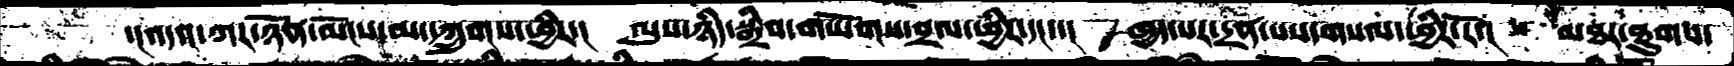་།འདའ་ཀར་ཉོན་མོངས་མ་དཀྲུགས་ཕྱིར་།  ལུས་ཉིད་སྒྲིབ་གཡོགས་བྲལ་ཕྱིར་དང་་།  ཁྱད་པར་དྲིན་པས་གསལ་ཕྱིར་རོ་།  མཐར་ཐུགས་
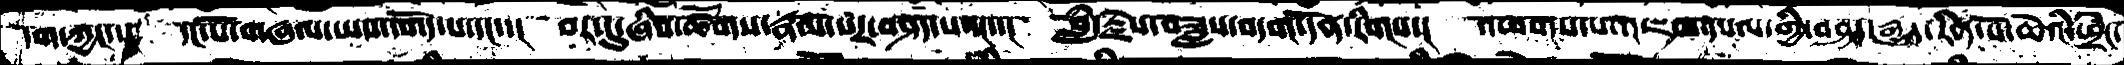དག་ཀྱང་།  དང་པོ་གཞལ་ཡས་དགོད་པ་དང་་།  བར་དུ་ཞིབ་ཚོགས་རྣམ་པར་བཤད་པ་དང་་།  བླཾ་རྗེས་བཟླས་བདག་དོན་རིགས་།  འཕགས་པ་འཇམ་དཔལ་གྱི་བཤད་རྒྱུད་རིན་པོ་ཆེའི་ཕྲེང་
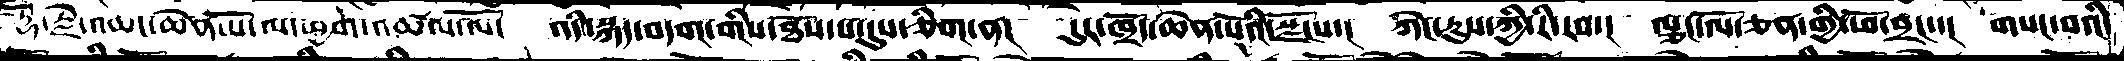རྡོ་རྗེ་འཆང་ཆེན་པོ་ལ་ཕྱག་འཚལ་ལོ།  འདི་སྐད་བདག་གིས་ཐོས་པ་དུས་གཅིག་ན།   དུར་ཁྲོད་ཆེན་པོའི་སྫོངས་།  ཀེང་རུས་ཀྱི་རི་རབ་།  ལྕང་ལོ་ཅན་གྱི་ཕོ་བྲང་་།  གསང་བའི་
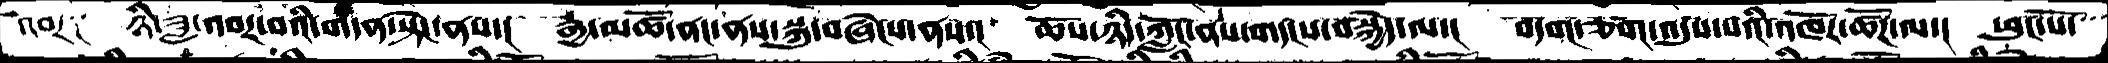འབར༑   ཉི་ཟླ་འབར་བའི་གདན་སྟེང་ནས་།   རྒྱ་མཚོ་ནང་ནས་སྐུ་བཞེངས་ནས་།   ཆོས་ཉིད་ཀློང་ནས་གདངས་བསྐྱེད་ལ་།  བདག་ཅག་འདུས་པའི་འཁོར་ཚོཌ་ལ་།  ཕུང་པོ་
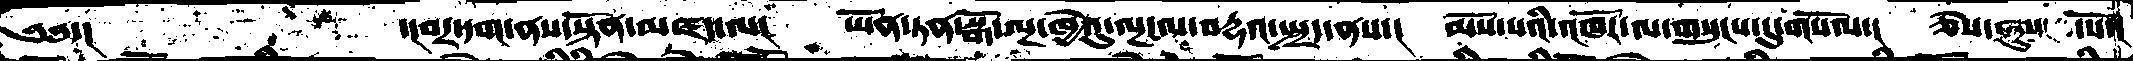༄༅་།     ་།བར་དག་ནས་སྟོན་མཛད་ལ།   ཡོན་ཏན་སྒོ་ལྔ་ཁྱེའུ་ལྔ་ལ་བདྷའ་སྤྲད་ནས་།  མོས་པའི་འཁོར་ལ་གསུངས་དུ་གསོལ་།  ཅེས་གསུངས་སོ་།
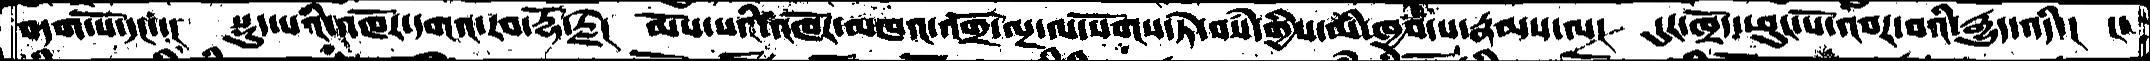བདག་པོ་དང་་།   སྡུད་པའི་འཁོར་དགའ་རབ་རྡོ་རྗེ།   མོས་པའི་འཁོར་མཁའ་འགྲོ་ལྔ་ལ་སོགས་ཏེ་བསཾ་གྱིས་མི་ཁྱབ་པ་རྣམས་ལ།  དུར་ཁྲོད་ཕུང་པོ་འབར་བའི་རྒྱུད་འདི་།  ང
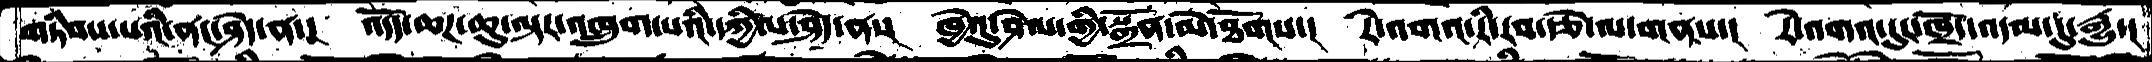གཏིབས་པའི་ནང་ཤེད་ན་།  འདོད་ཆཌ་ཆུ་ལྟར་འཁྲུག་པའི་དཀྱིལ་ཤེད་ན་།  ཁྱེའུ་ཤེལ་གྱི་སྒྲོན་མེ་ཐོགས་།  རེ་འགའ་རི་རབ་རྩེ་ལ་གནས་།  རེ་འགའ་དུར་ཁྲོད་འདམ་དུ་རྒྱུ་།
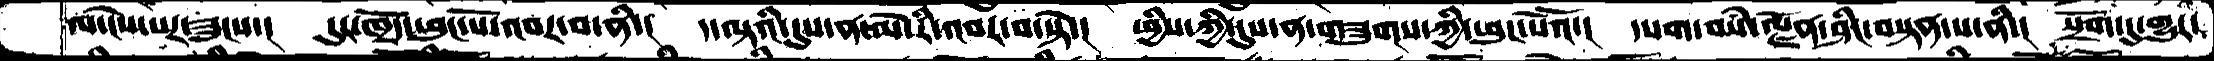ལ་ངེས་པར་ཟུངས་།  དུར་ཁྲོད་ཕུང་པོ་འབར་བ་ནི་།  ད་ལྟའི་དུས་ན་མེ་རི་འབར་བ་སྟེ་།  ཕྱིས་ཀྱི་དུས་ན་གཟུགས་ཀྱི་ཕུང་པོའོ་།  དཔག་བསཾ་ལྗོན་ཤིང་བསྟན་པ་ནི་།  སྲོག་དུ་གྱུར་་
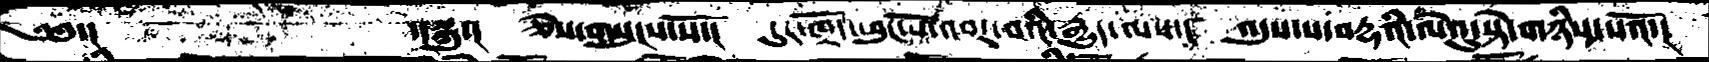༄༅་།             ་།སྐུ་།   ཅེས་གསུངས་སོ་།    དུར་ཁྲོད་ཕུང་པོ་འབར་བའི་རྒྱུད་ལས་།   འདུས་པ་བདྷའི་ལེའུ་སྟེ་གཉིས་པའོ་།
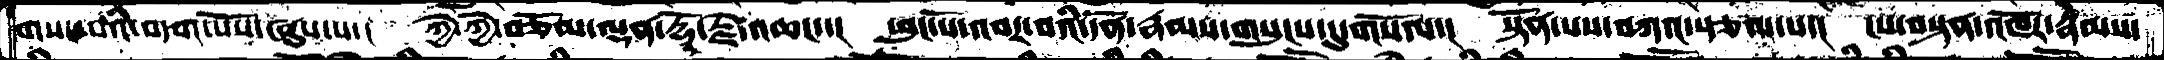གསང་བའི་བདག་པོས་ཞུས་པ་།  ཀྱེ་ཀྱེ་བཅོམ་ལྡན་རྡོ་རྗེ་འཆང་་།  ཕུང་པོ་འབར་བའི་དོན་རྣམས་གསུངས་དུ་གསོལ་།  སྟོན་པས་བཀའ་སྩལ་པ་།  ངས་བསྟན་འཁོར་རྣམས་
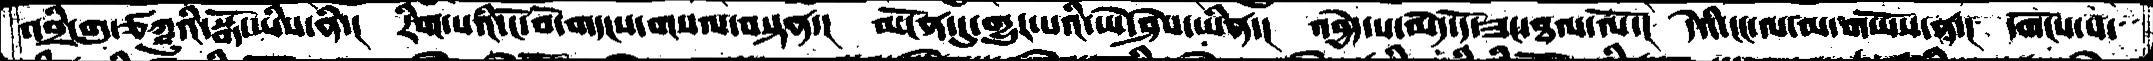འབྲི་གུ་ཙཀྵུའི་སྒོ་ཡིས་ནི་།  རིག་པའི་ངོ་བོ་གདངས་གསལ་བསྟན་།  མངོན་དུ་གྱུར་པའི་ཡེ་ཤེས་ཡིན་།  འབྱེད་པ་མེད་དོ་ཟང་ཐལ་ལོ་།  དེའི་ངང་ལ་མ་གཡོས་ན་།  དགོངས་པ་
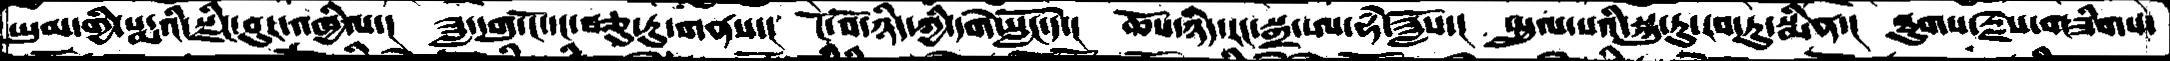ཡུམ་གྱི་པདྨའི་སྫིང་བུར་འཁྱིལ་།   ཟླ་དགུ་ངོ་དང་བཅུ་རུ་གནས་།  ངོ་བོ་ཉིད་ཀྱི་དགེ་སློང་དེ་།  ཆོས་ཉིད་རང་སྒྲ་ཨ་ཧཾ་ཟློས་།  སྤྲུལ་པའི་སྐུ་རུ་རབ་ཏུ་སྨིན་།   ཐུགས་རྗེས་གཟིགས་
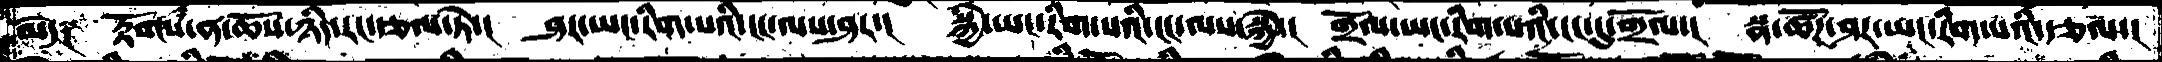མེད༑  རྟོགས་ན་ཆོས་ཉིད་རང་རྩལ་ཏེ་།  ཤར་ཡང་རིག་པའི་ངང་ལས་ཤར་།  སྐྱེ་ཡང་རིག་པའི་ངང་ལས་སྐྱེ་།  གྲོལ་ཡང་རིག་པའི་ངང་དུ་གྲོལ་།  སྣ་ཚོཌ་ཤར་ཡང་རིག་པའི་རྩལ་།
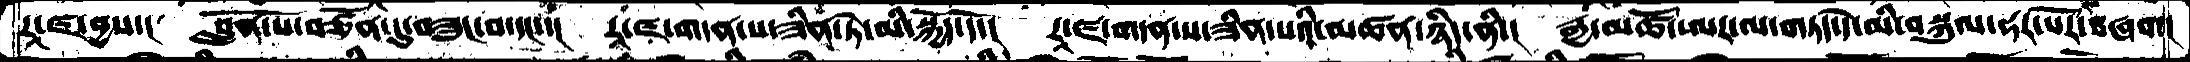རཱ་ཛ་བྱས་།  བློན་པོ་བཙོན་དུ་བཟུང་བ་དང་་།   རཱ་ཛ་གདན་ས་ཟིན་ཏེ་མི་སྐྱོད་དོ་།  རཱ་ཛ་གདན་ས་ཟིན་པའི་མཚན་ཉིད་ནི་།  རྒྱ་མཚོ་ཨར་ལ་གཏད་དེ་མི་བསྐུལ་ཧར་པོར་བཞག།
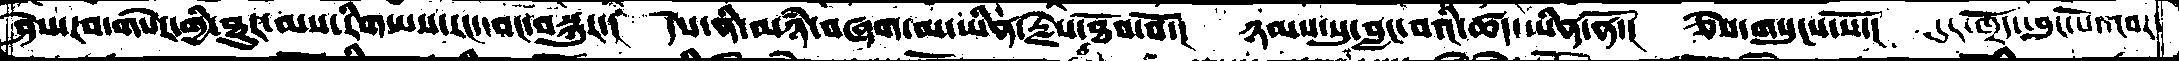ཤེས་རབ་གསེར་གྱི་ཐུཌ་ལས་རིག་པས་རང་དབང་བསྐུར་།  དེས་ནི་མཉཾ་བཞག་མ་ཡིན་རྗེས་ཐོབ་བོ་།  ཉམས་སུ་བླང་བའི་ཚད་ཡིན་ནོ་།  ཅེས་གསུངས་སོ་།  དུར་ཁྲོད་ཕུང་པོ་འབར་
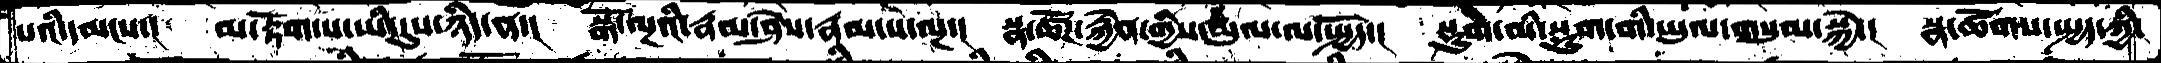པའི་དམངས་།  མ་རྟོག་པ་ཡི་དུས་ཉིད་ན་།  སྒོ་ལྔའི་རྣམ་ཤེས་རྣམ་པ་ལྔ་།  སྣ་ཚོཌ་རྐྱེན་གྱིས་ཡུལ་ལ་སྤྱོད་།  སྡུག་མི་སྡུག་གི་ཡུལ་གསུམ་སྐྱེ་།  སྣ་ཚོགས་སྤྱད་ཀྱི་
